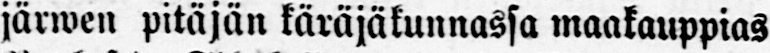järwen pitäjän käräjäkunnassa maakauppias
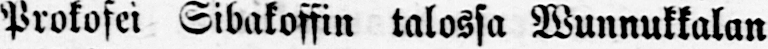Prokofei Sibakoffin talossa Wunnukkalan
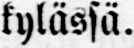kylässä.
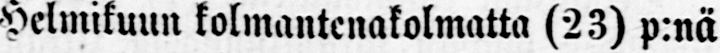Helmikuun kolmantenakolmatta (23) p:nä
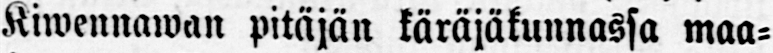Kiwennawan pitäjän käräjäkunnassa maa-
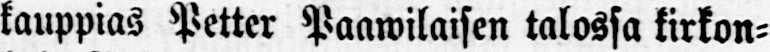kauppias Petter Paarwilaisen talossa kirkon-
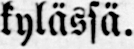kylässä.
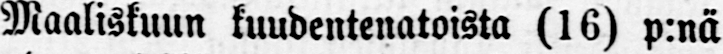Maaliskuun kuudentenatoista (16) p:nä
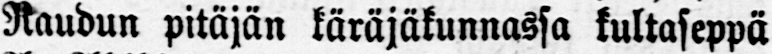Raudun pitäjän käräjäkunnassa kultaseppä
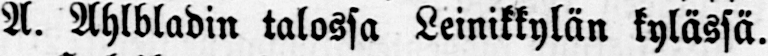A. Ahlbladin talossa Leinikkylän kylässä.
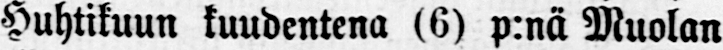Huhtikuun kuudentena (6) p:nä Muolan
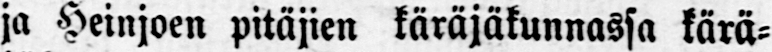ja Heinjoen pitäjien käräjäkunnassa kärä-
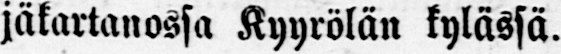jäkartanossa Kyyrölän kylässä.
